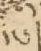དང་།
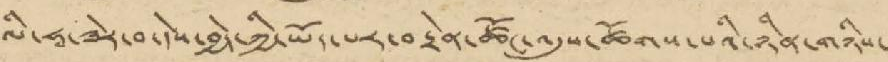ལི་ཧཱ་ཟེར་བ་དེས་བྱེད་ཀྱི་ཡོད་པར་བརྟེན་ཚོང་འདུས་ཚོགས་པའི་ཉིན་གཉིས་
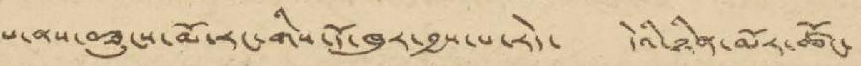པ་ནས་བཟུངས་མོ་རང་གིས་དོ་ཁུར་བྱས་པ་རེད་ དེའི་ཉིན་མོར་ཚོང་
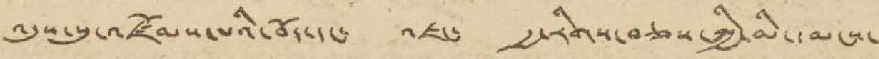འདུས་དུ་འཛོམས་པའི་བོད་དང་ འཇང་ རྒྱ་རིགས་བཅས་ཀྱི་མི་དམངས་
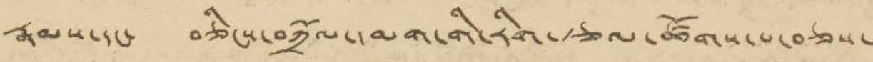རྣམས་དང་ བཅིངས་བཀྲོལ་དམག་གི་རིག་རྩལ་ཚོགས་པ་བཅས་
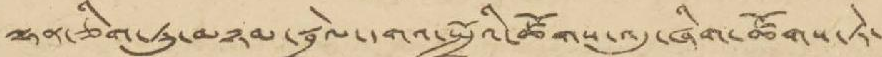ལྷན་ཅིག་ཏུ་མཉམ་སྦྲེལ་དགའ་སྤྲོའི་ཚོགས་འདུ་ཞིག་ཚོགས་ཏེ་
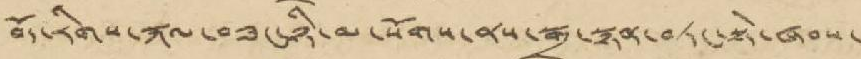བོད་རིགས་སྐལ་བཟང་ཉི་མ་སོགས་ནས་སྒྲ་སྙན་བཏང་སྟེ་ཞབས་
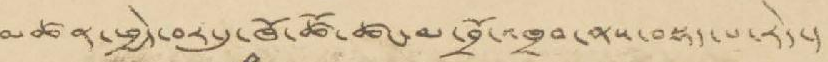མཚན་ཕྱེད་བར་དུ་ཁོ་ཚོ་ཚང་མ་བྲོ་འཁྲབ་ནས་བསྡད་པ་རེད་།
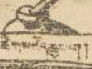ཚིགས་མཛོད་ཆུང་བ་།
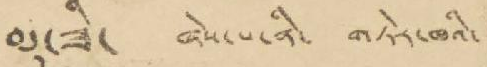མུ་ཟེ་ ཞེས་པ་ནི་ གཏེར་ཁའི་
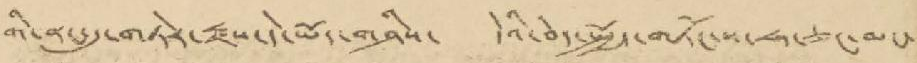གི་ནང་དུ་གཏེར་རྫས་དེ་ཡོད་གཤིས་ དེའི་བེད་སྤྱོད་གཏོང་ས་ཧ་ཅང་མང་
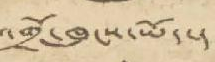འགྲོ་ཁུངས་ཡོད་།
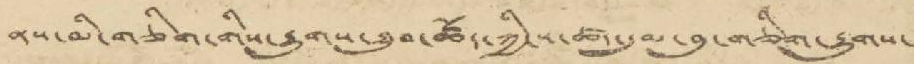ནས་མི་གཅིག་གིས་རྒྱུགས་ཐུབ་ཚོད་ཀྱི་ས་ཚད་དུམ་བུ་གཅིག་རྒྱུགས་
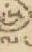ལ་
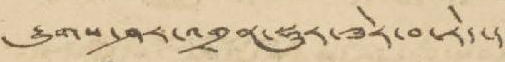རྒྱུགས་ཤར་འགྲན་སྡུར་ཟེར་བ་རེད་།
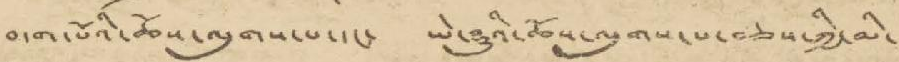བདག་པོའི་ཆོས་ལུགས་པ་དང་ ཡེ་ཤུའི་ཆོས་ལུགས་པ་བཅས་ཀྱི་མི་
